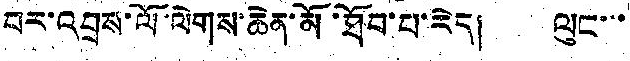བར་འབྲས་ལོ་ལེགས་ཆེན་མོ་ཐོབ་པ་རེད། ལུང་་་
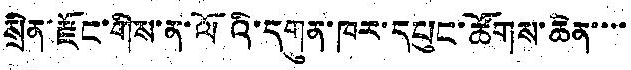སྲིན་རྫོང་གིས་ན་ལོའི་དགུན་ཁར་དཔུང་ཚོགས་ཆེན་་་་
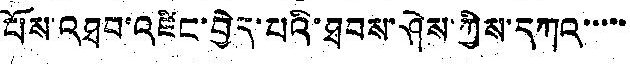པོས་འཐབ་འཛིང་བྱེད་པའི་ཐབས་ཤེས་ཀྱིས་དཀའ་་་་་
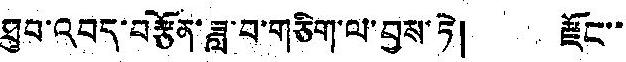ཐུབ་འབད་བརྩོན་ཟླ་བ་གཅིག་ལ་བྱས་ཏེ། རྫོང་་
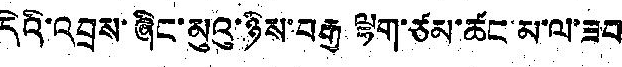དེའི་འབྲས་ཞིང་མུའུ་ཉིས་བརྒྱ ལྷག་ཙམ་ཚང་མ་ལ་ཟབ
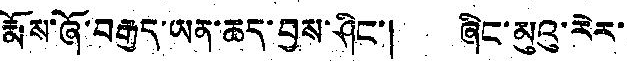རྨོས་ཞོ་བརྒྱད་ཡན་ཆད་བྱས་ཤིང་། ཞིང་མུའུ་རེར་
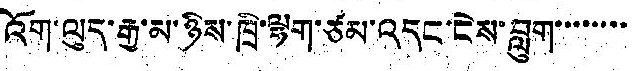འོག་ལུད་རྒྱ་མ་ཉིས་ཁྲི་ལྷག་ཙམ་འདང་ངེས་བླུག་་་་་་་་
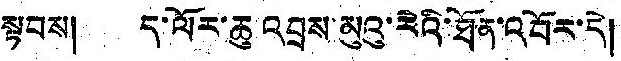སྟབས། ད་ལོར་ཆུ འབྲས་མུའུ་རེའི་ཐོན་འབོར་དེ།
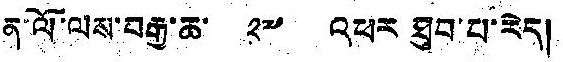ན་ལོ་ལས་བརྒྱ་ཆ་ ༢༧ འཕར ཐུབ་པ་རེད།
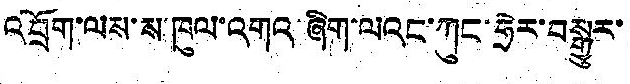འབྲོག་ལས་ས་ཁུལ་འགའ ཞིག་ལའང་ཀུང་ཧྲེར་བསྒྱུར་
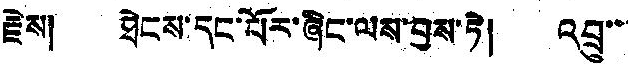རྗེས། ཐེངས་དང་པོར་ཞིང་ལས་བྱས་ཏེ། འབྲུ་་
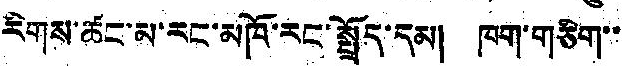རིགས་ཚང་མ་རང་མཁོ་རང་སྤྲོད་དམ། ཁག་གཅིག་་
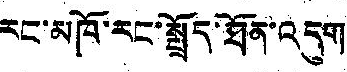རང་མཁོ་རང་སྤྲོད་ཐོན་འདུག
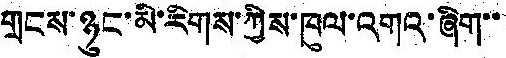གྲངས་ཉུང་མི་རིགས་ཀྱིས་ཁུལ་འགའ་ཞིག་་
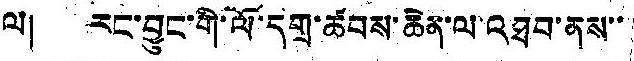ལ། རང་བྱུང་གི་ལོ་དགྲ་ཚབས་ཆེན་ལ་འཐབ་ནས་་
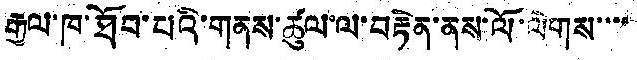རྒྱལ་ཁ་ཐོབ་པའི་གནས་ཚུལ་ལ་བརྟེན་ནས་ལོ་ལེགས་་་་
